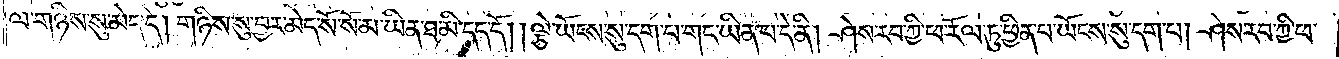ལ་གཉིས་སུ་མེད་དེ། གཉིས་སུ་བྱར་མེད་སོ་སོ་མ་ཡིན་ཐ་མི་དད་དོ། །ལྕེ་ཡོངས་སུ་དག་པ་གང་ཡིན་པ་དེ་ནི། ཤེས་རབ་ཀྱི་ཕ་རོལ་ཏུ་ཕྱིན་པ་ཡོངས་སུ་དག་པ། ཤེས་རབ་ཀྱི་ཕ་
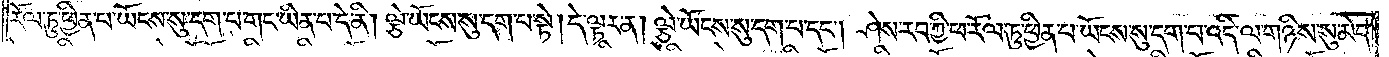རོལ་ཏུ་ཕྱིན་པ་ཡོངས་སུ་དག་པ་གང་ཡིན་པ་དེ་ནི། ལྕེ་ཡོངས་སུ་དག་པ་སྟེ། དེ་ལྟར་ན། ལྕེ་ཡོངས་སུ་དག་པ་དང༌། ཤེས་རབ་ཀྱི་ཕ་རོལ་ཏུ་ཕྱིན་པ་ཡོངས་སུ་དག་པ་འདི་ལ་གཉིས་སུ་མེད་
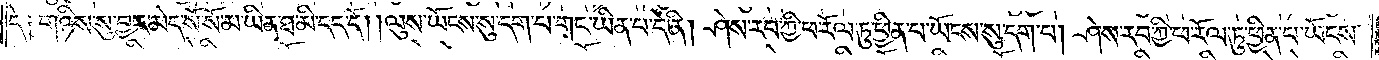དེ༑ གཉིས་སུ་བྱར་མེད་སོ་སོ་མ་ཡིན་ཐ་མི་དད་དོ། །ལུས་ཡོངས་སུ་དག་པ་གང་ཡིན་པ་དེ་ནི། ཤེས་རབ་ཀྱི་ཕ་རོལ་ཏུ་ཕྱིན་པ་ཡོངས་སུ་དག་པ། ཤེས་རབ་ཀྱི་ཕ་རོལ་ཏུ་ཕྱིན་པ་ཡོངས་
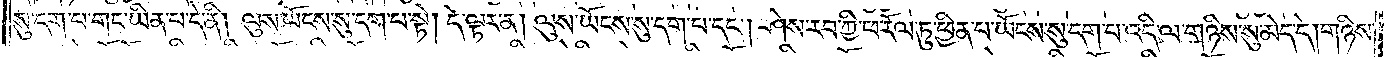སུ་དག་པ་གང་ཡིན་པ་དེ་ནི། ལུས་ཡོངས་སུ་དག་པ་སྟེ། དེ་ལྟར་ན། ལུས་ཡོངས་སུ་དག་པ་དང༌། ཤེས་རབ་ཀྱི་ཕ་རོལ་ཏུ་ཕྱིན་པ་ཡོངས་སུ་དག་པ་འདི་ལ་གཉིས་སུ་མེད་དེ། གཉིས་
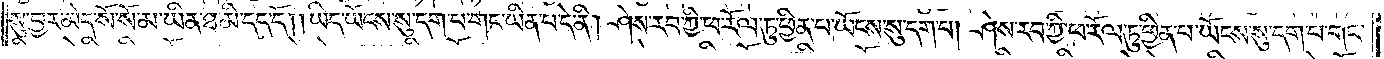སུ་བྱར་མེད་སོ་སོ་མ་ཡིན་ཐ་མི་དད་དོ། །ཡིད་ཡོངས་སུ་དག་པ་གང་ཡིན་པ་དེ་ནི། ཤེས་རབ་ཀྱི་ཕ་རོལ་ཏུ་ཕྱིན་པ་ཡོངས་སུ་དག་པ། ཤེས་རབ་ཀྱི་ཕ་རོལ་ཏུ་ཕྱིན་པ་ཡོངས་སུ་དག་པ་གང་
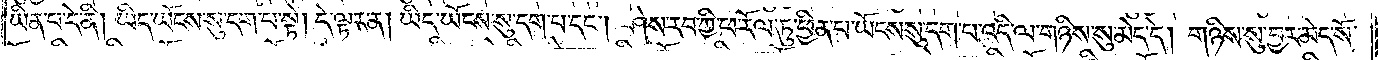ཡིན་པ་དེ་ནི། ཡིད་ཡོངས་སུ་དག་པ་སྟེ། དེ་ལྟར་ན། ཡིད་ཡོངས་སུ་དག་པ་དང༌། ཤེས་རབ་ཀྱི་ཕ་རོལ་ཏུ་ཕྱིན་པ་ཡོངས་སུ་དག་པ་འདི་ལ་གཉིས་སུ་མེད་དེ། གཉིས་སུ་བྱར་མེད་སོ་
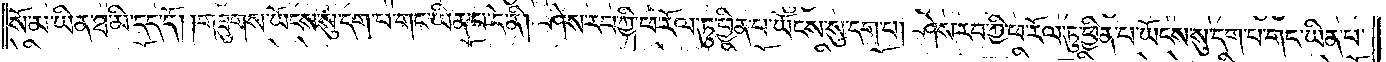སོ་མ་ཡིན་ཐ་མི་དད་དོ། །གཟུགས་ཡོངས་སུ་དག་པ་གང་ཡིན་པ་དེ་ནི། ཤེས་རབ་ཀྱི་ཕ་རོལ་ཏུ་ཕྱིན་པ་ཡོངས་སུ་དག་པ། ཤེས་རབ་ཀྱི་ཕ་རོལ་ཏུ་ཕྱིན་པ་ཡོངས་སུ་དག་པ་གང་ཡིན་པ་
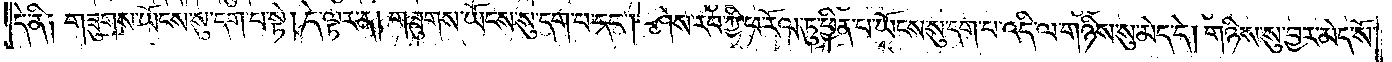དེ་ནི༑ གཟུགས་ཡོངས་སུ་དག་པ་སྟེ། དེ་ལྟར་ན། གཟུགས་ཡོངས་སུ་དག་པ་དང༌། ཤེས་རབ་ཀྱི་ཕ་རོལ་ཏུ་ཕྱིན་པ་ཡོངས་སུ་དག་པ་འདི་ལ་གཉིས་སུ་མེད་དེ། གཉིས་སུ་བྱར་མེད་སོ་
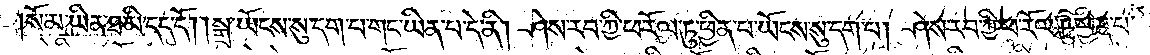སོ་མ་ཡིན་ཐ་མི་དད་དོ། །སྒྲ་ཡོངས་སུ་དག་པ་གང་ཡིན་པ་དེ་ནི། ཤེས་རབ་ཀྱི་ཕ་རོལ་ཏུ་ཕྱིན་པ་ཡོངས་སུ་དག་པ། ཤེས་རབ་ཀྱི་ཕ་རོལ་ཏུ་ཕྱིན་པ་
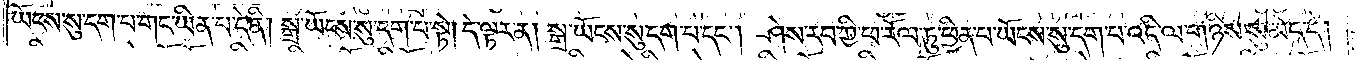ཡོངས་སུ་དག་པ་གང་ཡིན་པ་དེ་ནི། སྒྲ་ཡོངས་སུ་དག་པ་སྟེ། དེ་ལྟར་ན། སྒྲ་ཡོངས་སུ་དག་པ་དང༌། ཤེས་རབ་ཀྱི་ཕ་རོལ་ཏུ་ཕྱིན་པ་ཡོངས་སུ་དག་པ་འདི་ལ་གཉིས་སུ་མེད་དེ།
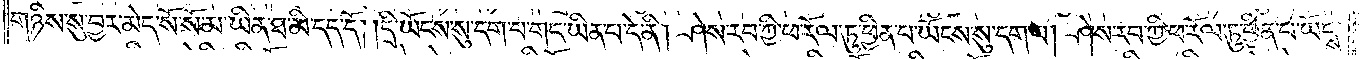གཉིས་སུ་བྱར་མེད་སོ་སོ་མ་ཡིན་ཐ་མི་དད་དོ། །དྲི་ཡོངས་སུ་དག་པ་གང་ཡིན་པ་དེ་ནི། ཤེས་རབ་ཀྱི་ཕ་རོལ་ཏུ་ཕྱིན་པ་ཡོངས་སུ་དག་པ། ཤེས་རབ་ཀྱི་ཕ་རོལ་ཏུ་ཕྱིན་པ་ཡོངས་
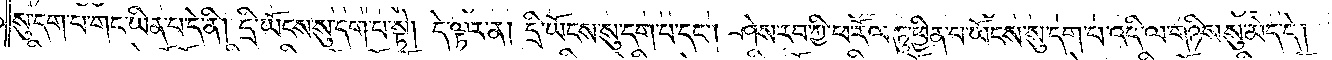སུ་དག་པ་གང་ཡིན་པ་དེ་ནི། དྲི་ཡོངས་སུ་དག་པ་སྟེ། དེ་ལྟར་ན། དྲི་ཡོངས་སུ་དག་པ་དང༌། ཤེས་རབ་ཀྱི་ཕ་རོལ་ཏུ་ཕྱིན་པ་ཡོངས་སུ་དག་པ་འདི་ལ་གཉིས་སུ་མེད་དེ།
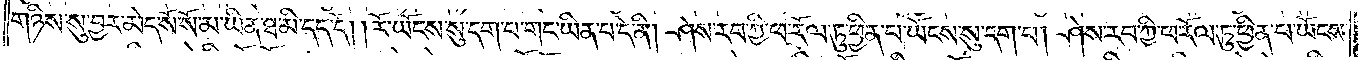གཉིས་སུ་བྱར་མེད་སོ་སོ་མ་ཡིན་ཐ་མི་དད་དོ། །རོ་ཡོངས་སུ་དག་པ་གང་ཡིན་པ་དེ་ནི། ཤེས་རབ་ཀྱི་ཕ་རོལ་ཏུ་ཕྱིན་པ་ཡོངས་སུ་དག་པ། ཤེས་རབ་ཀྱི་ཕ་རོལ་ཏུ་ཕྱིན་པ་ཡོངས་
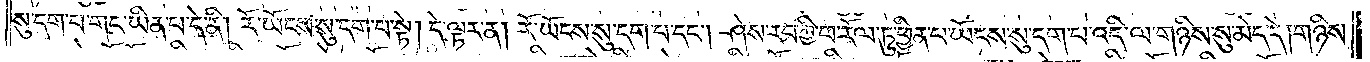སུ་དག་པ་གང་ཡིན་པ་དེ་ནི། རོ་ཡོངས་སུ་དག་པ་སྟེ། དེ་ལྟར་ན། རོ་ཡོངས་སུ་དག་པ་དང༌། ཤེས་རབ་ཀྱི་ཕ་རོལ་ཏུ་ཕྱིན་པ་ཡོངས་སུ་དག་པ་འདི་ལ་གཉིས་སུ་མེད་དེ། གཉིས་
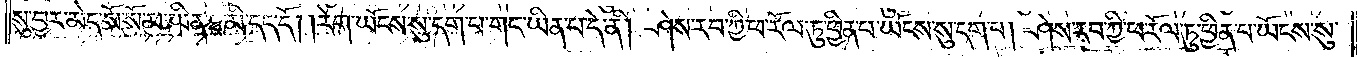སུ་བྱར་མེད་སོ་སོ་མ་ཡིན་ཐ་མི་དད་དོ། །རེག་ཡོངས་སུ་དག་པ་གང་ཡིན་པ་དེ་ནི། ཤེས་རབ་ཀྱི་ཕ་རོལ་ཏུ་ཕྱིན་པ་ཡོངས་སུ་དག་པ། ཤེས་རབ་ཀྱི་ཕ་རོལ་ཏུ་ཕྱིན་པ་ཡོངས་སུ་
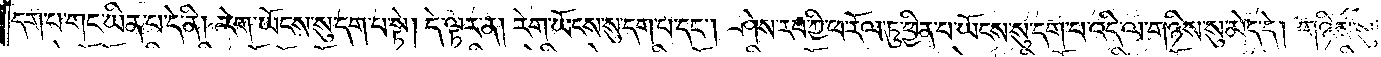དག་པ་གང་ཡིན་པ་དེ་ནི། རེག་ཡོངས་སུ་དག་པ་སྟེ། དེ་ལྟར་ན། རེག་ཡོངས་སུ་དག་པ་དང༌། ཤེས་རབ་ཀྱི་ཕ་རོལ་ཏུ་ཕྱིན་པ་ཡོངས་སུ་དག་པ་འདི་ལ་གཉིས་སུ་མེད་དེ། གཉིས་སུ་
